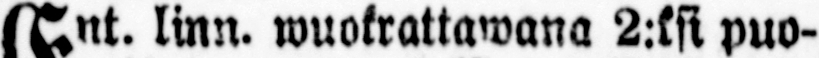Ent. linn. wuokrattawana 2:ksi puo-
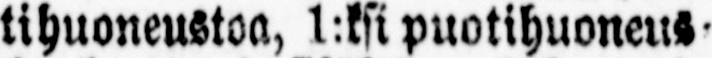tihuoneustoa, 1:ksi puotihuoneus-
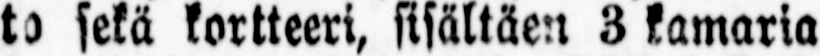to sekä kortteeri, sisältäen 3 kamaria
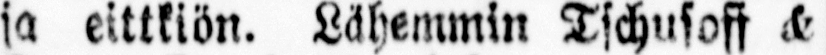ja eittkiön. Lähemmin Tschusoff &
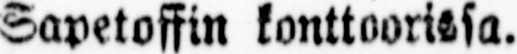Sapetoffin konttoorissa.
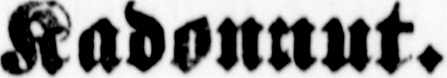Kadonnut.
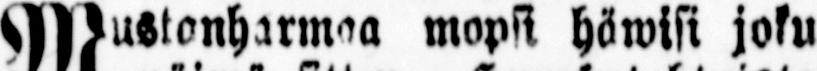Mustonharmoa mopsi häwisi joku
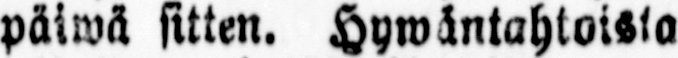päiwä sitten. Hywäntahtoista
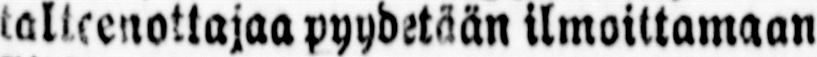talteenottajaa pyydetään ilmoittamaan
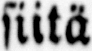siitä
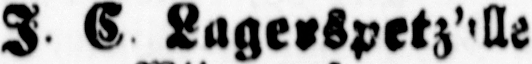I C Lagerspetz'ille
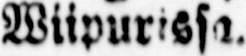Wiipuri'ssa.
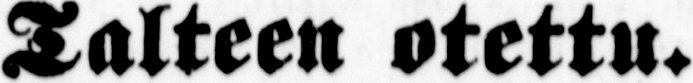Talteen otettu.
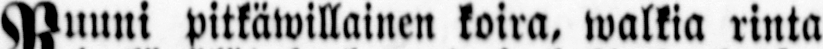Ruuni pitkäwillainen koira, walkia rinta
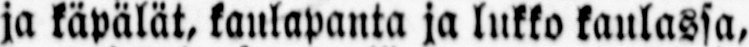ja käpälät, kaulapanta ja lukko kaulassa,
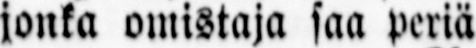jonka omistaja saa periä
